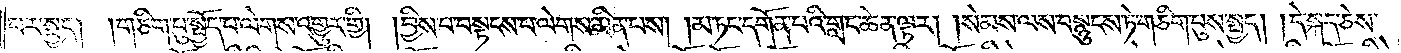པར་སྤྱད།  །གཅིག་པུ་སྤྱོད་པ་ལེགས་འགྱུར་གྱི། །བྱིས་པ་བསྟངས་པ་ལེགས་མིན་པས། །མ་ཏང་དགོན་པའི་གླང་ཆེན་ལྟར། །སེམས་ལས་བསྙུངས་ཏེ་གཅིག་པུས་སྤྱད། །དེ་སྐད་ཅེས་
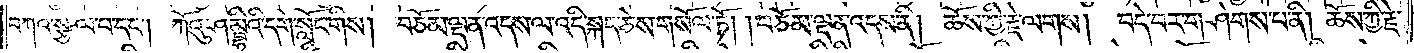བཀའ་སྩལ་པ་དང༌། ཀོའུ་ཤམྦྷིའི་དགེ་སློང་གིས། བཅོམ་ལྡན་འདས་ལ་འདི་སྐད་ཅེས་གསོལ་ཏོ། །བཅོམ་ལྡན་འདས་ནི། ཆོས་ཀྱི་རྗེ་ལགས། །བདེ་བར་གཤེགས་པ་ནི། ཆོས་ཀྱི་རྗེ་
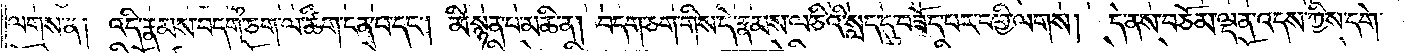ལགས་ན། འདི་རྣམས་བདག་ཅག་ལ་ཚིག་ངན་པ་དང༌། མི་སྙན་པ་མཆི་ན། བདག་ཅག་གིས་དེ་རྣམས་ལ་ཅིའི་སླད་དུ་བཟོད་པར་བགྱི་ལགས། དེ་ནས་བཅོམ་ལྡན་འདས་ཀྱིས་དགེ་
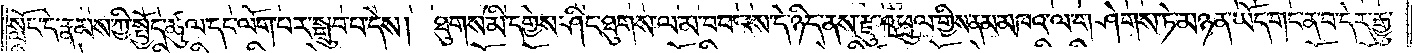སློང་དེ་རྣམས་ཀྱི་སྤྱོད་ཚུལ་དང་ལོག་པར་སྒྲུབ་པ་དེས། ཐུགས་མི་དགྱེས་ཤིང་ཐུགས་ལ་མ་བབ་པས་དེ་ཉིད་ནས་རྫུ་འཕྲུལ་གྱིས་ནམ་མཁའ་ལ་གཤེགས་ཏེ་མཉན་ཡོད་གང་ན་བ་དེར་རྒྱུ་
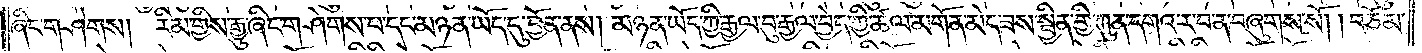ཞིང་གཤེགས། རིམ་གྱིས་རྒྱུ་ཞིང་གཤེགས་པ་དང་མཉན་ཡོད་དུ་བྱོན་ནས། མཉན་ཡོད་ཀྱི་རྒྱལ་བུ་རྒྱལ་བྱེད་ཀྱི་ཚལ་མགོན་མེད་ཟས་སྦྱིན་གྱི་ཀུན་དགའ་ར་བ་ན་བཞུགས་སོ། །བཅོམ་
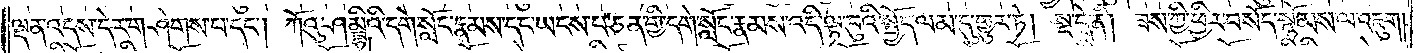ལྡན་འདས་དེར་གཤེགས་པ་དང༌། ཀོའུ་ཤམྦྷིའི་དགེ་སློང་རྣམས་དང་ཡངས་པ་ཅན་གྱི་དགེ་སློང་རྣམས་འདི་ལྟ་བུའི་སྤྱོད་ལམ་དུ་གྱུར་ཏེ། སྔ་དྲོ་ནི། ཟས་ཀྱི་ཕྱིར་བསོད་སྙོམས་ལ་འཇུག།
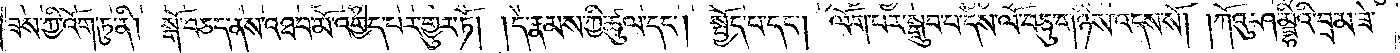ཟས་ཀྱི་འོག་ཏུ་ནི། སྒོ་བཅད་ནས་འཐབ་མོ་འགྱེད་པར་གྱུར་ཏོ། །དེ་རྣམས་ཀྱི་ཚུལ་དང༌། སྤྱོད་པ་དང༌། ལོག་པར་སྒྲུབ་པ་དེས་ལོ་བཅུ་གཉིས་འདས་སོ། །ཀོའུ་ཤམྦྷིའི་བྲམ་ཟེ་
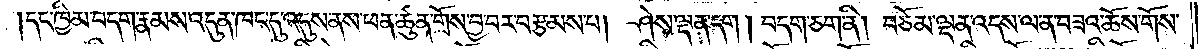དང་ཁྱིམ་བདག་རྣམས་འདུན་ཁང་དུ་འདུས་ནས་ཕན་ཚུན་གྲོས་བྱ་བར་བརྩམས་པ། ཤེས་ལྡན་དག། བདག་ཅག་ནི། བཅོམ་ལྡན་འདས་ལ་ན་བཟའ་ཆོས་གོས་
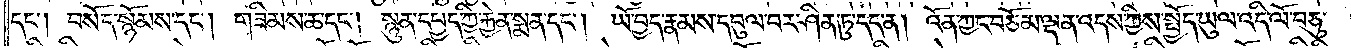དང༌། བསོད་སྙོམས་དང༌། གཟིམས་ཆ་དང༌། སྙུན་དཔྱད་ཀྱི་རྐྱེན་སྨན་དང༌། ཡོ་བྱད་རྣམས་དབུལ་བར་ཤིན་ཏུ་དད་ན། འོན་ཀྱང་བཅོམ་ལྡན་འདས་ཀྱིས་སྤྱོད་ཡུལ་འདི་ལོ་བཅུ་
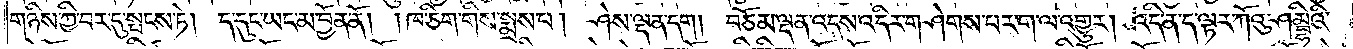གཉིས་ཀྱི་བར་དུ་སྤངས་ཏེ། ད་དུང་ཡང་མ་བྱོན་ནོ། །ཁ་ཅིག་གིས་སྨྲས་པ། ཤེས་ལྡན་དག། བཅོམ་ལྡན་འདས་འདིར་གཤེགས་པར་ག་ལ་འགྱུར། འདི་ན་ད་ལྟར་ཀོའུ་ཤམྦྷིའི་
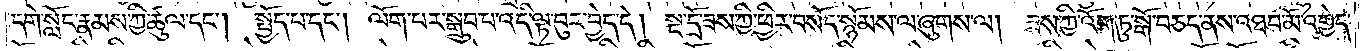དགེ་སློང་རྣམས་ཀྱི་ཚུལ་དང༌། སྤྱོད་པ་དང༌། ལོག་པར་སྒྲུབ་པ་འདི་ལྟ་བུར་བྱེད་དེ། སྔ་དྲོ་ཟས་ཀྱི་ཕྱིར་བསོད་སྙོམས་ལ་ཞུགས་ལ། ཟས་ཀྱི་འོག་ཏུ་སྒོ་བཅད་ནས་འཐབ་མོ་འགྱེད་
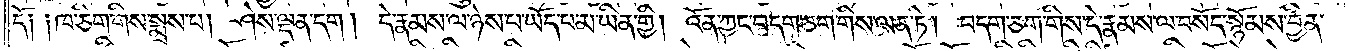དོ༑ ༑ཁ་ཅིག་གིས་སྨྲས་པ། ཤེས་ལྡན་དག། དེ་རྣམས་ལ་ཉེས་པ་ཡོད་པ་མ་ཡིན་གྱི། འོན་ཀྱང་བདག་ཅག་གིས་ལན་ཏེ། བདག་ཅག་གིས་དེ་རྣམས་ལ་བསོད་སྙོམས་བྱིན་
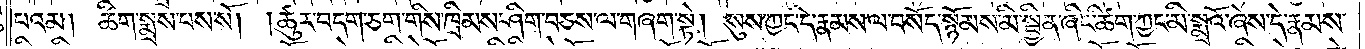པའམ། ཚིག་སྨྲས་པས་སོ། །ཚུར་བདག་ཅག་གིས་ཁྲིམས་ཤིག་བཅས་ལ་གཞག་སྟེ། སུས་ཀྱང་དེ་རྣམས་ལ་བསོད་སྙོམས་མི་སྦྱིན་ཞིང་ཚིག་ཀྱང་མི་སྨྲའོ་ཞེས་དེ་རྣམས་
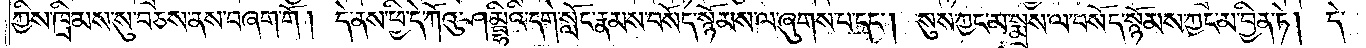ཀྱིས་ཁྲིམས་སུ་བཅས་ནས་བཞག་གོ། དེ་ནས་ཕྱི་དེ་ཀོའུ་ཤམྦྷིའི་དགེ་སློང་རྣམས་བསོད་སྙོམས་ལ་ཞུགས་པ་དང༌། སུས་ཀྱང་མ་སྨྲས་ལ་བསོད་སྙོམས་ཀྱང་མ་བྱིན་ཏེ། དེ་
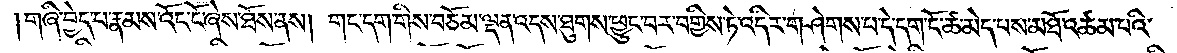གཞི་བྱེད་པ་རྣམས་འོང་ངོ་ཞེས་ཐོས་ནས། གང་དག་གིས་བཅོམ་ལྡན་འདས་ཐུགས་ཕྱུང་བར་བགྱིས་ཏེ་འདིར་གཤེགས་པ་དེ་དག་ངོ་ཚ་མེད་པས་མཐོ་འཚམ་པའི་
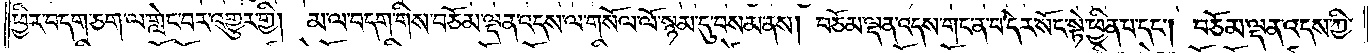ཕྱིར་བདག་ཅག་ལ་གླེང་བར་འགྱུར་གྱི། མ་ལ་བདག་གིས་བཅོམ་ལྡན་འདས་ལ་གསོལ་ལོ་སྙམ་དུ་བསམ་ནས། བཅོམ་ལྡན་འདས་གང་ན་བ་དེར་སོང་སྟེ་ཕྱིན་པ་དང༌། བཅོམ་ལྡན་འདས་ཀྱི་
